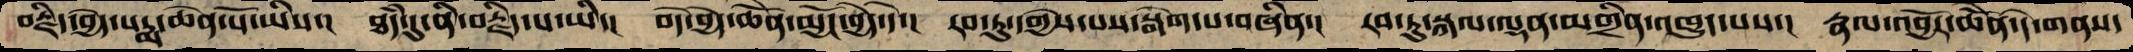བརྗིད་བྱེད་པདྨ་ཆེན་པོ་ཡིས་།  ཐཾད་དུ་ནི་བརྗིད་པ་ཡི་།  བདེ་བྱེད་ཆེནོ་མྱོང་བྱེད་དེ་།  རབ་ཏུ་དགྱེས་པས་སྒེག་པ་བཞིན་།  རབ་ཏུ་སྐལ་ལྡན་མགྲིན་འཁྱུད་པས་།  རྣལ་འབྱོར་ཆེནོ་དེ་གནས་
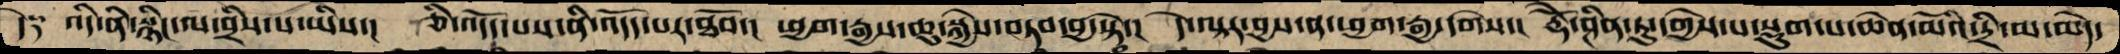དེ༑  འདི་ནི་སྙིང་ལ་བྲིས་པ་ཡིས་།  ཅི་འདོད་པས་ནི་འདོད་པར་ཐོབ་།  ཕྱག་རྒྱས་ཆུ་སྐྱེས་བཏབ་བྱ་སྟེ་།  དེ་ལྟར་བྱས་ན་ཕྱག་རྒྱ་དགེས་།  རྡོེ་ཤིན་ཏུ་དགྱེས་པ་སྡུག་པ་ཆེན་མོའི་དྲི་མ་མེད་
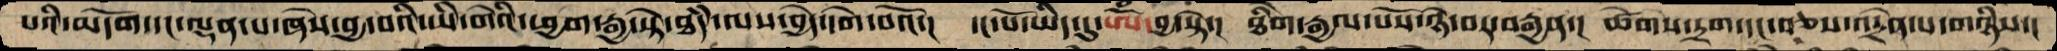པའི་མདོག་དང་ལྡན་པ་ཞེས་བའི་ཡི་གེའི་ཕྱག་རྒྱ་སྟེ་ཐཾད་ལས་བྱེད་དགེ་བའོ་།  དང་པོ་ཡིད་དུ་ཨོཾ་བྱ་སྟེ་།  ཐིགེ་རྒྱལ་པོས་ཉེ་བར་བརྒྱན་།  ཚེགས་དྲག་དང་བཅས་འདྲེན་པ་གཉིས་།
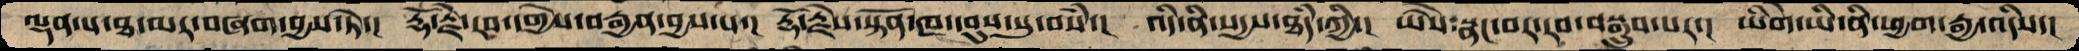ལྡན་པ་ཐ་མར་བཞག་བྱས་ཏེ་།   རྡོ་རྗེ་རབ་དགྱེས་བརྒྱན་བྱས་པ་།  རྡོ་རྗེས་སྟོན་ཁ་དབུས་སུ་བསཾ་།  འདི་ནི་སདྱས་ཐཾད་ཀྱི་།  ཡཻས་སྣང་བར་རབ་བསྒྲུབ་པར་།  ཡིགེ་ཡི་ནི་ཕྱག་རྒྱ་འདིས་།
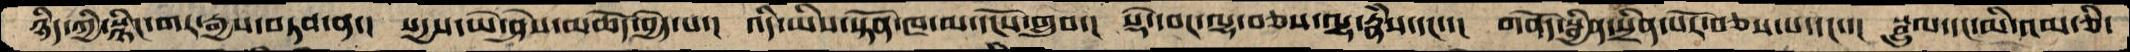ཉིད་ཀྱི་སྙིང་གར་རྒྱས་བཏབ་ན་།  སདྱས་ཡེ་ཤེས་མཆོད་བྱེད་པ་།  འདི་ཡིས་སྟོན་ཁ་མ་དངོས་གྲུབ་།  སྡེ་དབང་ལྷ་བཅས་ལྷ་རྣཾས་དང་་།  གནོད་སྦྱིན་སྲིན་པོར་བཅས་པ་དང་་།  སྦྲུལ་དང་མི་འམ་ཅི་
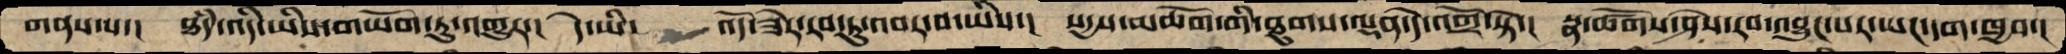གནས་པ་།  ཐདཾ་འདི་ཡིས་གཡོག་ཏུ་འགྱུར་།  དེ་ཡི་  འོད་ཟེར་རབ་ཏུ་འབར་བ་ཡིས་།  སདྱས་མཆོག་གི་ཐུགས་ལྡན་དེ་འགྲོ་སྟེ་།  སྣ་ཚོགས་ཤེས་རབ་འབྱུང་པར་ཡང་དག་ཁྱབ་།
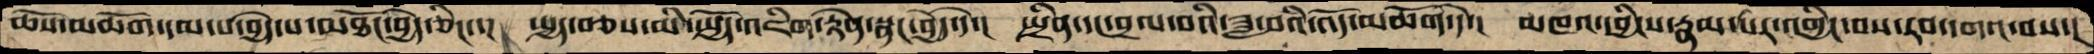ཆོས་མཆོག་དམ་པ་བྱེད་པ་མཐོང་བྱེད་ཅིང་་།  སྤྱད་བཅས་མི་སྤྱོད་འཇིག་རྟེན་སྣང་བྱེད་དེ་།  སྤྲིན་དང་བྲལ་བའི་ཟླ་བའི་འོད་མཆོག་དེ་།  མཁའ་དབྱིངས་རྣམ་པར་འགྱིང་བས་རབ་དགའ་བས་།
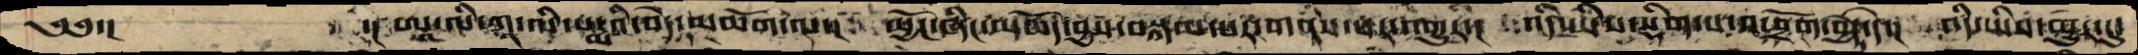༄༅་།  ་།ཨཱ་ལི་ཀཱ་ལི་པདྨའི་བདེ་མཆོག་ལ་།  མྱོང་ཞིང་མཆོད་བྱས་བསྐལ་པར་གནས་པར་གྱུར་།  འདི་ཡིས་སྡིག་པ་འཕྲོག་བྱེད་དེ་། འདི་ཡིས་མྱུར་དུ་
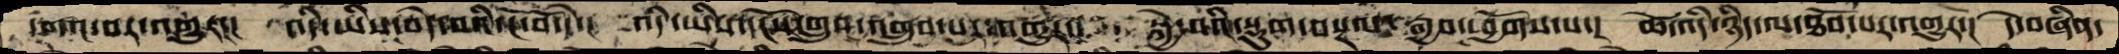དགའ་བར་འགྱུར་། འདི་ཡིས་བདེ་བའི་ངོ་བོ་དེ་། འདི་ཡིས་དངོས་གྲུབ་འགྲུབ་པར་འགྱུར་། སྐྱེ་བའི་སྡུག་བསྔལ་རྒྱབ་ཕྱོགས་པ་། ཚེ་འདི་ཉིད་ལ་ཐོབ་པར་འགྱུར་། དེ་བཞིན་
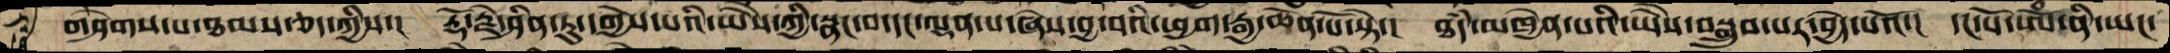གཤེགས་པ་ཐམས་ཅད་ཀྱིས་། རྡོ་རྗེ་ཤིན་ཏུ་དགྱེས་པའི་ཡཻས་ཀྱི་སྣང་བ་དང་ལྡན་པ་ཞེས་བྱ་བའི་ཕྱག་རྒྱ་ཆེན་པོ་སྟེ་། ཐདཾ་མཁྱེན་པའི་ཡཻས་བསྒྲུབ་པར་བྱེད་པའོ་། དང་པོ་ཨོཾ་ནི་ཡང་
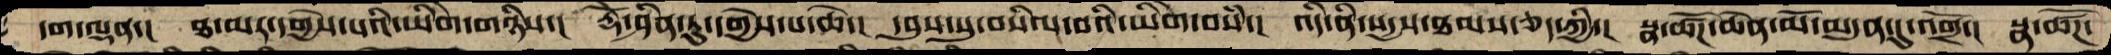དག་ལྡན་། ཐ་མར་དགྱེས་པའི་ཡིགེ་གཉིས་། རྡོེ་ཤིན་ཏུ་དགྱེས་པ་ཆེ་། དབུས་སུ་བསིལ་བའི་ཡིགེ་བསཾ་། འདི་ནི་སདྱས་ཐམས་ཅད་ཀྱི་། སྣ་ཚོགས་ཆེན་མོ་མདུན་དུ་འགྲོ་། སྣ་ཚོཌ་
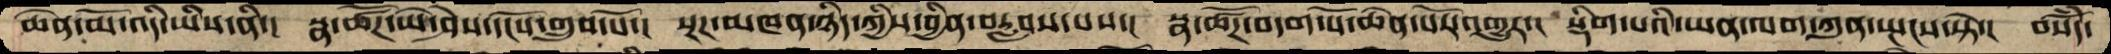ཆེན་མོ་འདི་ཡིས་ནི་།  སྣ་ཚོཌ་ཡེ་ཤེས་དངོས་གྲུབ་པོ་།  སྔཌ་མཁན་ཉིད་ཀྱིས་བྱིན་བརླབས་པས་།  སྣ་ཚོཌ་བདག་པོ་ཆེན་པོར་འགྱུར་།  སྡིག་པའི་ཡན་ལག་ཀུན་སྤངས་སྟེ་།  བསོདཾ་
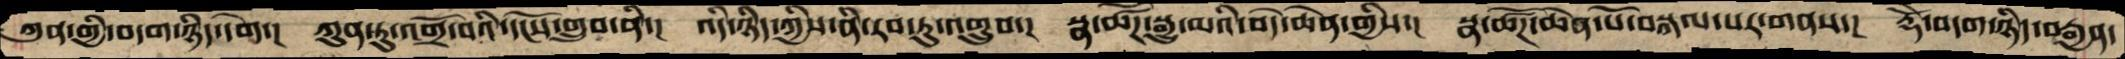ཀུན་གྱི་བདག་ཉིད་བདེ་།  ཀུན་ཏུ་འགྲོ་བའི་དངོས་གྲུབ་ནི་།  འདི་ཉིད་ཀྱིས་ནི་རབ་ཏུ་འགྲུབ་།  སྣ་ཚོཌ་སྒྱུ་མའི་བདེ་ཆེན་གྱིས་།  སྣ་ཚོཌ་ཆེན་པོ་བསྐལ་པར་གནས་།  རྡོེ་བདག་ཉིད་བརྒྱན་
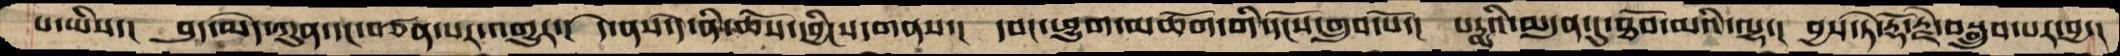པ་ཡིས་།  བུད་མེད་ཀུན་དང་བཙན་པར་འགྱུར་།  དེ་ནས་དེ་ནི་ཆོས་དབྱིངས་གནས་།  དབང་ཕྱུག་མཆོག་གི་དངོས་གྲུབ་པོ་།  པདྨའི་མདུན་དུ་ཐོབ་མའི་ལྷ་།  བྱས་ཏེ་རྡོ་རྗེ་བསྒྲུབ་པར་བྱ་།
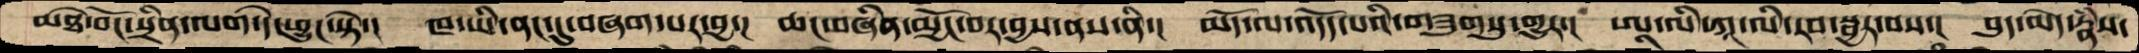མཐེ་བོང་སྲིན་ལག་དེ་ཕྱུང་སྟེ་།  ཁ་ཡི་ནང་དུ་བཞག་པར་བྱ་།  ཆང་བཞིན་མྱོང་བར་བྱས་ནས་ནི་།  མདོ་ལ་འདོད་པའི་གཟུགསུ་གྱུར་།  ཨཱ་ལི་ཀཱ་ལི་རབ་སྦྱར་བས་།  བུད་མེད་རྣཾས་
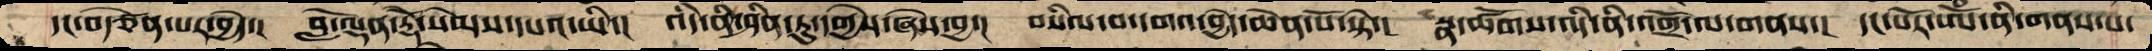དང་བརྩོན་པར་བྱེད་།  བློ་ལྡན་རྡོེ་སེམས་དཔའ་ཡི་།  འདི་ནི་ཤིན་ཏུ་དགྱེས་ཞེས་བྱ་།  བསིལ་བ་དགའ་བྱེད་ཆེན་པོ་སྟེ་།  སྣ་ཚོགས་འདི་ནི་འགྲོ་ལ་གནས་།  དང་པོར་ཨོཾ་ནི་གནས་པ་
